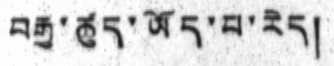བརྒྱ་ཚུད་ཡོད་པ་རེད།
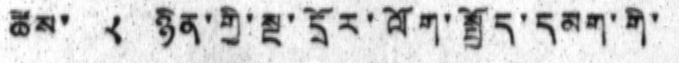ཚེས་ ༨ ཉིན་གྱི་ལྔ་དྲོར་ལོག་སྤྱོད་དམག་གི་
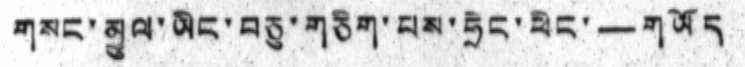གསང་མྱུལ་ཡིང་བཅུ་གཅིག་པས་ཧྲེང་ཕིང་ — གཡོད
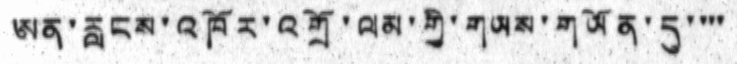ཨན་རླངས་འཁོར་འགྲོ་ལམ་གྱི་གཡས་གཡོན་དུ་་་་
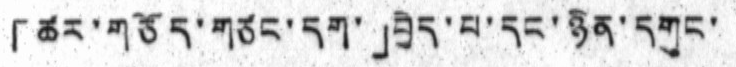「ཚར་གཅོད་གཙང་དག་」བྱེད་པ་དང་ཉིན་དགུང་
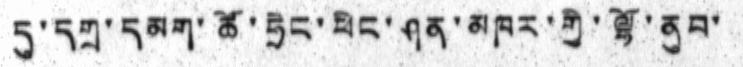དུ་དགྲ་དམག་ཚོ་ཧྲེང་ཕིང་ཤན་མཁར་གྱི་ལྷོ་ནུབ་
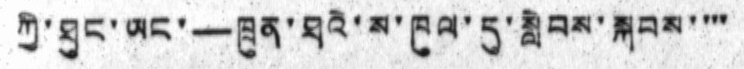ཀྱི་ཐུང་ཡང་ —ཁྲུན་ཐའི་ས་ཁུལ་དུ་སླེབས་སྐབས་་་་
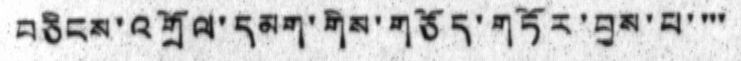བཅིངས་འགྲོལ་དམག་གིས་གཅོད་གཏོར་བྱས་པ་་་་
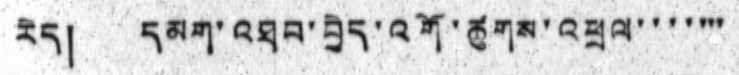རེད། དམག་འཐབ་བྱེད་འགོ་ཚུགས་འཕྲལ་་་་་་་
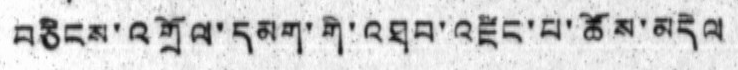བཅིངས་འགྲོལ་དམག་གི་འཐབ་འཛིང་པ་ཚོས་མདེལ
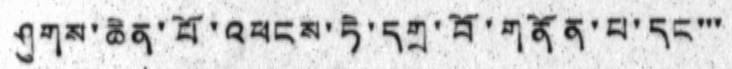ཤུགས་ཆེན་པོ་འཕངས་ཏེ་དགྲ་བོ་གནོན་པ་དང་་་
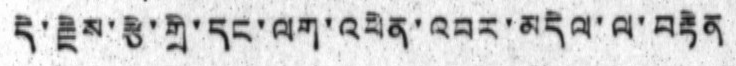དེ་རྗེས་རྩེ་གྲི་དང་ལག་འཕེན་འབར་མདེལ་ལ་བརྟེན
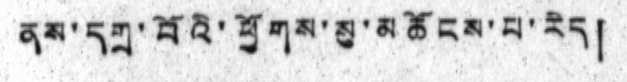ནས་དགྲ་བོའི་ཕྱོགས་སུ་མཆོངས་པ་རེད།
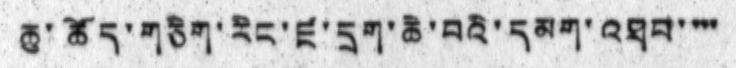ཆུ་ཚོད་གཅིག་རིང་ཛ་དྲག་ཆེ་བའི་དམག་འཐབ་་་་
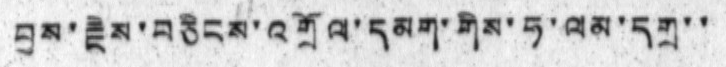བྱས་རྗེས་བཅིངས་འགྲོལ་དམག་གིས་ཧ་ལམ་དགྲ་་
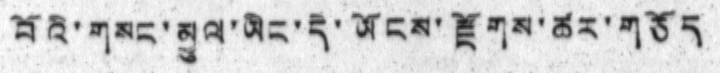བོའི་གསང་མྱུལ་ཡིང་དེ་ཡོངས་རྫོགས་ཚར་གཅོད
